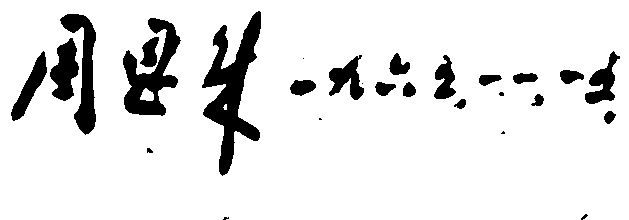周恩来 一九六五，一一，一五。
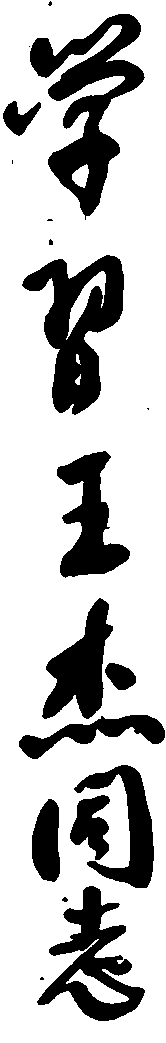学習王杰同志
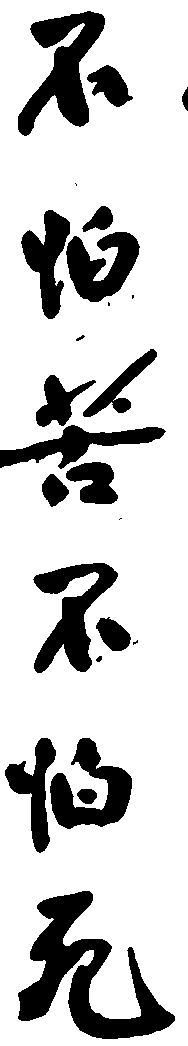不怕苦不怕死
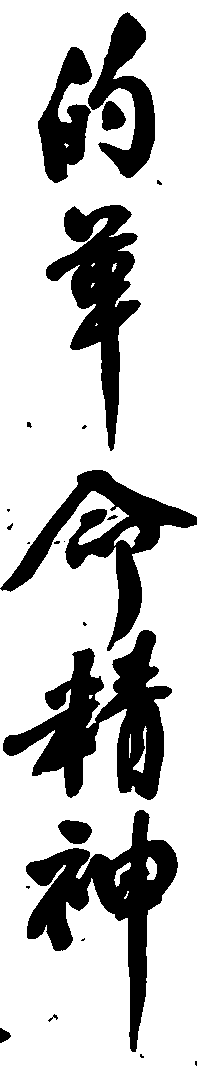的革命精神
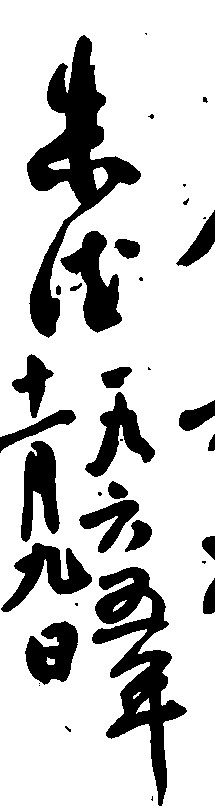朱德 一九六五年
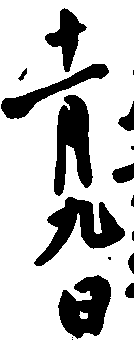十一月九日
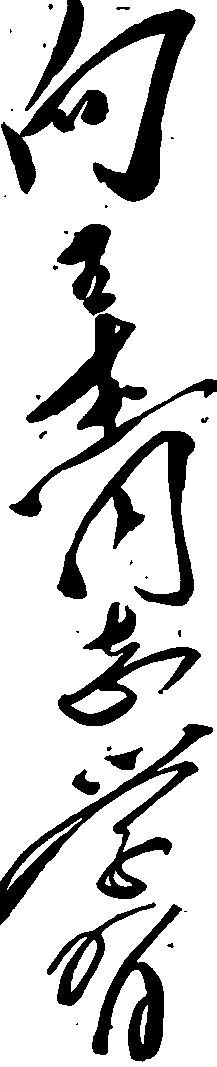向王杰同志学習
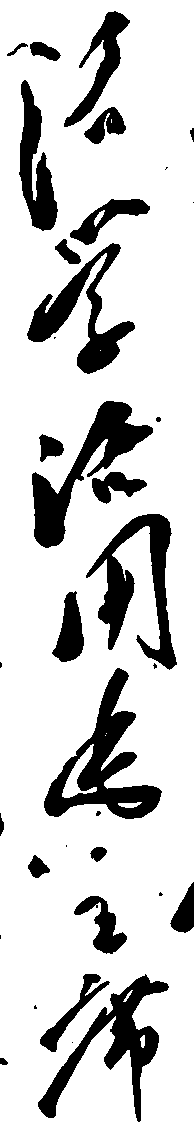活学活用為主席
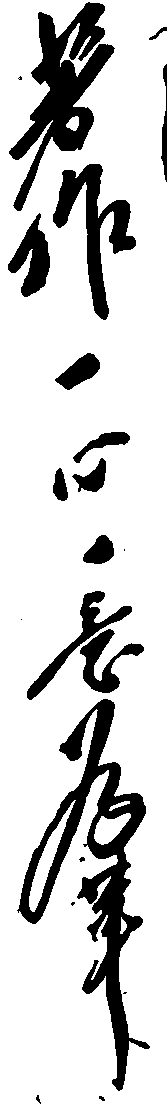著作一心一意為革
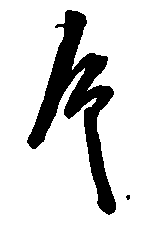命
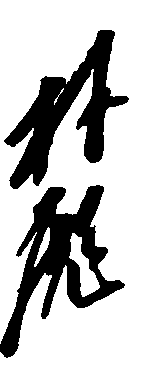林彪
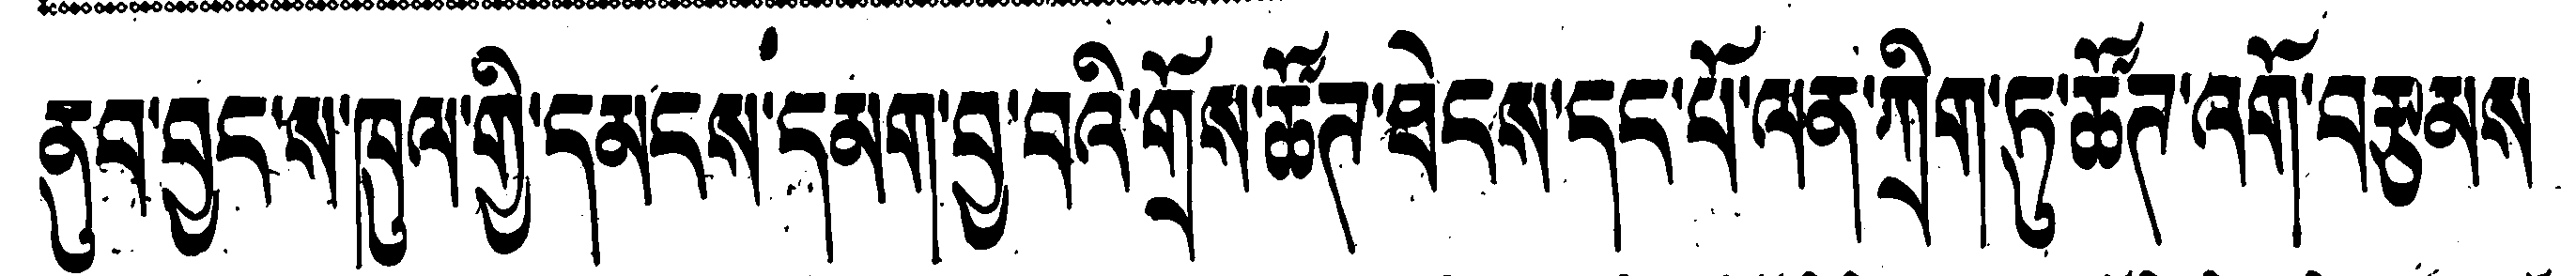ནུབ་བྱངས་ཁུལ་གྱི་དམངས་དམག་བྱ་བའི་གྲོས་ཚོཊ་ཐེངས་དང་པོ་ལན་ཀྲིག་ཏུ་ཚོཊ་འགོ་བརྩམས
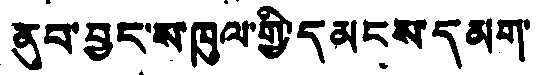ནུབ་བྱང་ས་ཁུལ་གྱི་དམངས་དམག་
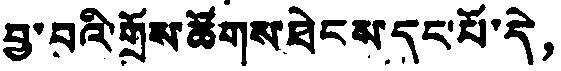བྱ་བའི་གྲོས་ཚོགས་ཐེངས་དང་པོ་དེ，
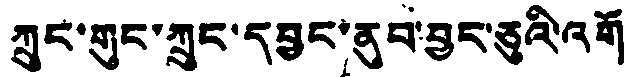ཀྲུང་གུང་ཀྲུང་དབྱང་ནུབ་བྱང་ཅུའི་འགོ
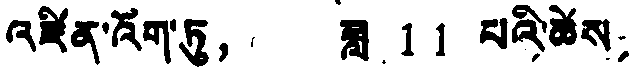འཛིན་འོག་ཏུ， ཟླ 11 པའི་ཚེས，
